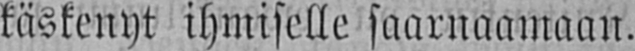käskenyt ihmiselle saarnaamaan.
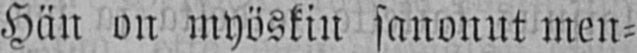Hän on myöskin sanonut men-
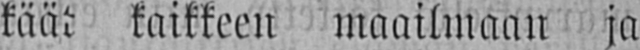käät kaikkeen maailmaan ja
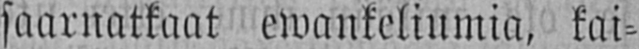saarnatkoot ewankeliumia, kai-
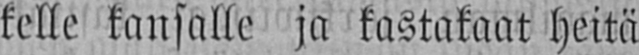kelle kansalle ja kastakaat heitä
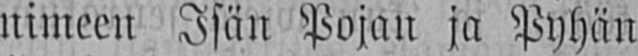nimeen Isän Pojan ja Pyhän
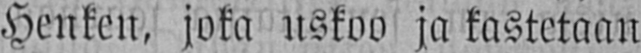Henken, joka uskoo ja kastetaan
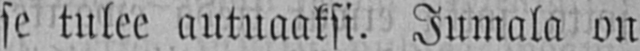se tulee autuaaksi. Jumala on
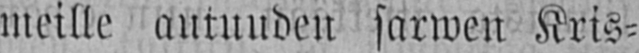meille autuuden sarwen Kris-
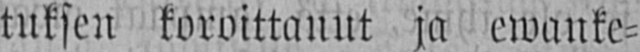tuksen koroittanut ja ewanke-
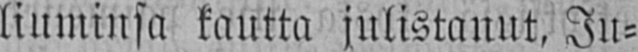liuminsa kautta julistanut, Ju-
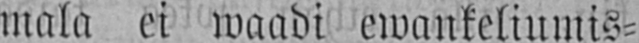mala ei waadi ewonkeliumis-
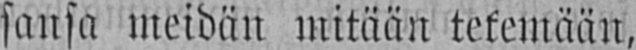sansa meidän mitään tekemään,
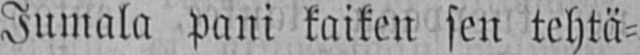Jumala pani kaiken sen tehtä-
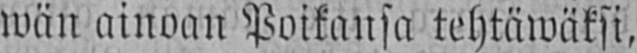wän ainoan Poikansa tehtäwäksi,
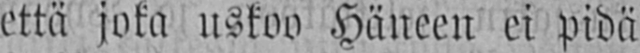että joka uskoo Häneen ei pidä
